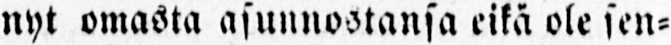nyt omasta asunnostansa eikä ole sen-
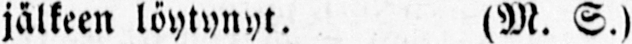jälkeen löytynyt. (M. S.)
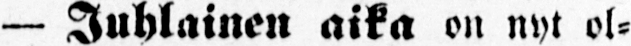— Juhlainen aika on nyt ol-
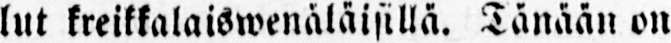lut kreikkalaiswenäläisillä. Tänään on
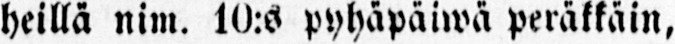heillä nim. 10:s pyhäpäiwä peräkkäin,
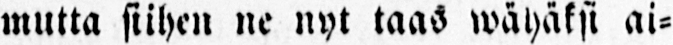mutta siihen ne nyt taas wähäksi ai-
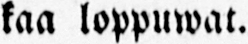kaa loppuwat.
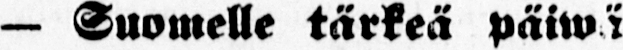— Suomelle tärkeä päiwä
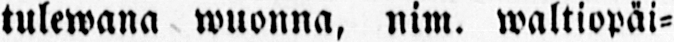tulewana wuonna, nim. waltiopäi-
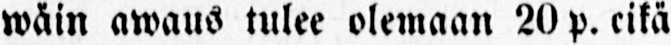wäin awaus tulee olemaan 20 p. eikä
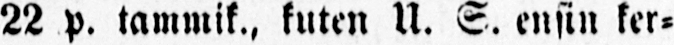22 p. tammik., kuten U. S. ensin ker-
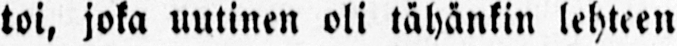toi, joka uutinen oli tähänkin lehteen
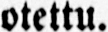otettu.
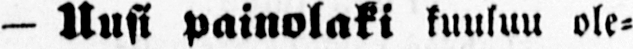— Uusi painolaki kuuluu ole-
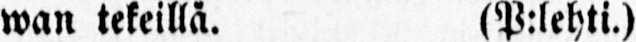wan tekeillä. (P:lehti.)
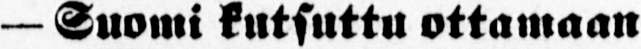— Suomi kutsuttu ottamaan
